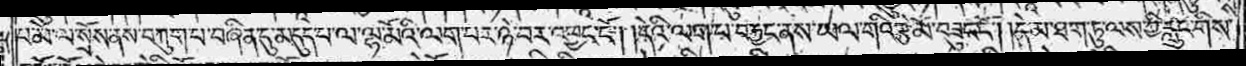པ་མེ་ལ་སྲོས་ནས་བཀུག་པ་བཞིན་དུ་མདུད་པ་ལ་ལྷ་མོའི་ལག་པར་ཉེ་བར་འཕྱང་ངོ༌། །དེའི་ལག་པ་བརྐྱང་ནས་ཡལ་གའི་རྩེ་མོ་བཟུང་ངོ༌། །དེ་མ་ཐག་ཏུ་ལས་ཀྱི་རླུང་གིས་
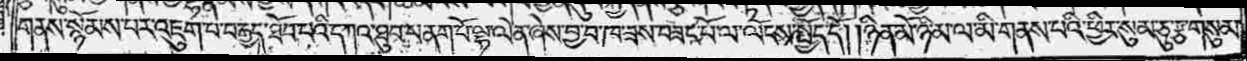གནས་སྙོམས་པར་འཇུག་པ་བརྒྱད་ཐོབ་པའི་དཀའ་ཐུབ་པ་ནག་པོ་ལྷ་ལེན་ཞེས་བྱ་བ་ཁ་ཟས་བཟང་པོ་ལ་ལོངས་སྤྱོད་དོ། །ཉིན་མོ་ཉི་མ་ལ་མི་གནས་པའི་ཕྱིར་སུམ་ཅུ་རྩ་གསུམ་
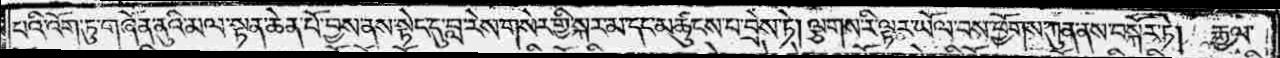པའི་འོག་ཏུ་གཞོན་ནུའི་མལ་སྟན་ཆེན་པོ་བྱས་ནས་སྟེང་དུ་བླ་རེས་གསེར་གྱི་སྐར་མ་དང་མཚུངས་པ་བྲེས་ཏེ། ལྕགས་རི་ལྟར་ཡོལ་བས་ཕྱོགས་ཀུན་ནས་བསྐོར་ཏེ། རྒྱལ་
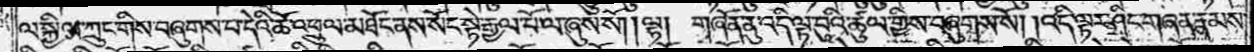ལ་སྐྱིལ་ཀྲུང་གིས་བཞུགས་པ་དེའི་ཆོ་འཕྲུལ་མཐོང་ནས་སོང་སྟེ་རྒྱལ་པོ་ལ་ཞུས་སོ། །ལྷ། གཞོན་ནུ་འདི་ལྟ་བུའི་ཚུལ་གྱིས་བཞུགས་སོ། །འདི་ལྟར་ཤིང་གཞན་རྣམས་
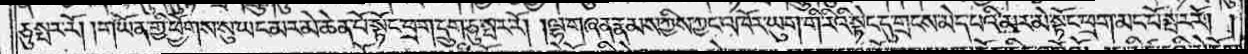ཅུ་སྤར་རོ། །གཡོན་གྱི་ཕྱོགས་སུ་ཡང་མར་མེ་ཆེན་པོ་སྟོང་ཕྲག་དྲུག་ཅུ་སྤར་རོ། །ལྷ་གཞན་རྣམས་ཀྱིས་ཀྱང་འཁོར་ཡུག་གི་རིའི་སྟེང་དུ་གྲངས་མེད་པའི་མར་མེ་སྟོང་ཕྲག་མང་པོ་སྤར་རོ། །
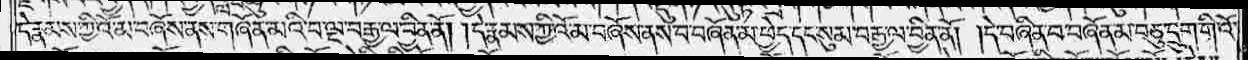དེ་རྣམས་ཀྱི་འོ་མ་བཞོས་ནས་གཞོན་མའི་བ་ལྔ་བརྒྱ་ལ་བྱིན་ནོ། །དེ་རྣམས་ཀྱི་འོ་མ་བཞོས་ནས་བ་བཞོན་མ་ཕྱེད་དང་སུམ་བརྒྱ་ལ་བྱིན་ནོ། །དེ་བཞིན་བ་བཞོན་མ་བཅུ་དྲུག་གི་འོ་
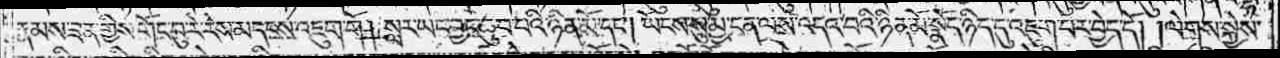རྣམས་ཟན་གྱིས་གོང་བུ་རེ་རེས་མདངས་འཇུག་གོ། སླར་ཡང་བྱང་ཆུབ་བའི་ཉིན་མོ་དང༌། ཡོངས་སུ་མྱ་ངན་ལས་འདའ་བའི་ཉིན་མོ་སྣོད་ཉིད་དུ་འཇུག་པར་བྱེད་དོ། །ལེགས་སྐྱེས་
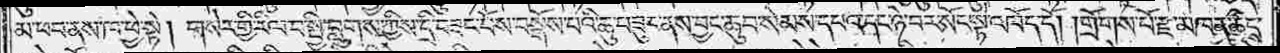མ་ཕབ་ནས་ཁ་ཕྱེ་སྟེ། གསེར་གྱི་རིལ་བ་སྤྱི་བླུགས་ཀྱིས་དྲི་བཟང་པོས་བསྒོས་པའི་ཆུ་བཟུང་ནས་བྱང་ཆུབ་སེམས་དཔའ་དང་ཉེ་བར་སོང་སྟེ་འཁོད་དོ། །གྲོགས་པོ་རྫ་མཁན་ཚངས་
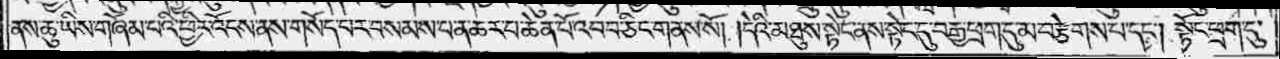ནས་ཆུ་ཡིས་གཞོམ་པའི་ཕྱིར་འོངས་ནས་གསོད་པར་བསམས་པ་ན་ཆར་པ་ཆེན་པོ་འབབ་ཅིང་གནས་སོ། །དེའི་མཐུས་སྟེང་ནས་སྟེང་དུ་བརྒྱ་ཕྲག་དུ་མ་བརྩེགས་པ་དང༌། སྟོང་ཕྲག་དུ་
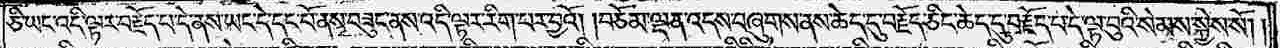ཅི་ཡང་འདི་ལྟར་བརྗོད་པ་དེ་ནས་ཡང་དེ་དང་པོ་ནས་བཟུང་ནས་འདི་ལྟར་རིག་པར་བྱའོ། །བཅོམ་ལྡན་འདས་བཞུགས་ནས་ཆེད་དུ་བརྗོད་ཅིང་ཆེད་དུ་བརྗོད་པ་དེ་ལྟ་བུའི་སེམས་སྐྱེས་སོ། །
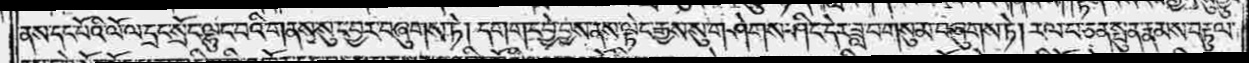ནས་དང་པོའི་ལོ་ལ་དྲང་སྲོང་ལྷུང་བའི་གནས་སུ་དབྱར་བཞུགས་ཏེ། དགག་དབྱེ་བྱས་ནས་ལྟེང་རྒྱས་སུ་གཤེགས་ཤིང་དེར་ཟླ་བ་གསུམ་བཞུགས་ཏེ། རལ་པ་ཅན་སྤུན་རྣམས་བརྟུལ་
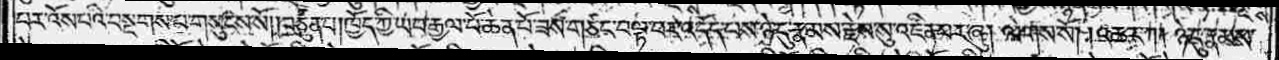པར་འོས་པའི་བསྔགས་པ་གསུངས་སོ། །བཙུན་པ། ཁྱོད་ཀྱི་ཡབ་རྒྱལ་པོ་ཆེན་པོ་ཟས་གཙང་བལྟ་བར་འདོད་པས་ཉེ་དུ་རྣམས་རྗེས་སུ་འཛིན་པར་ཞུ། ལེགས་སོ། །འཆར་ཀ། ཉེ་དུ་རྣམས་
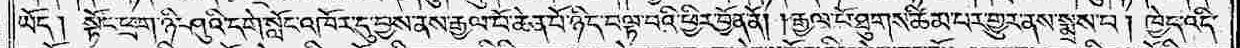ཡོད། སྟོང་ཕྲག་ཉི་ཤུའི་དགེ་སློང་འཁོར་དུ་བྱས་ནས་རྒྱལ་པོ་ཆེན་པོ་ཉིད་བལྟ་བའི་ཕྱིར་བྱོན་ནོ། །རྒྱལ་པོ་ཐུགས་ཚིམ་པར་གྱུར་ནས་སྨྲས་པ། ཁྱེད་འདི་
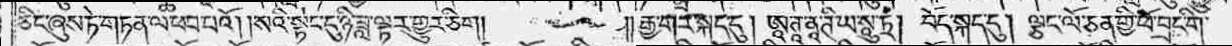ཅིང་ཞུས་ཏེ་གཏན་ལ་ཕབ་པའོ། །སའི་སྟེང་དུ་ཉི་ཟླ་ལྟར་གྱུར་ཅིག།      ༎རྒྱ་གར་སྐད་དུ། ཨཱ་ཊཱ་ནཱ་ཊི་ཡ་སཱུ་ཏྲ། བོད་སྐད་དུ། ལྕང་ལོ་ཅན་གྱི་ཕོ་བྲང་གི་
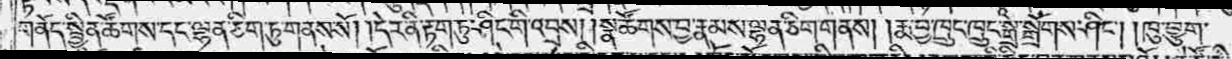གནོད་སྦྱིན་ཚོགས་དང་ལྷན་ཅིག་ཏུ་གནས་སོ། །དེར་ནི་རྟག་ཏུ་ཤིང་གི་འབྲས། །སྣ་ཚོགས་བྱ་རྣམས་ལྷན་ཅིག་གནས། །རྨ་བྱ་ཁྲུང་ཁྲུང་སྒྲ་སྒྲོགས་ཤིང༌། །ཁུ་བྱུག་
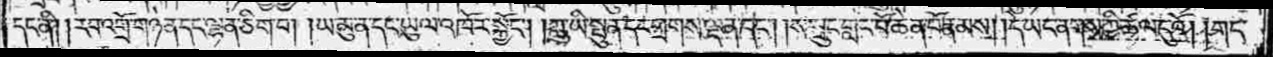དང་ནི། །རབ་འགྲོ་གཉེན་དང་ལྷན་ཅིག་བ། །ཡ་མུ་ན་དང་ཡུལ་འཁོར་སྐྱོང༌། །ཀླུ་ཡི་སྤུན་དང་གྲགས་ལྡན་དང༌། །ས་སྲུང་གླང་པོ་ཆེན་པོ་རྣམས། །དེ་ཡང་ནགས་ཀྱི་ཚལ་དུའོ། །གང་
